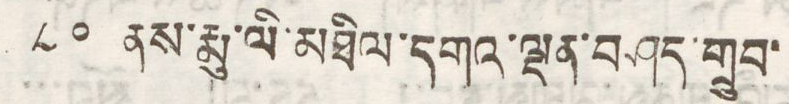༥༠ ནས་རྨུ་ལི་མཐིལ་དགའ་ལྡན་བཤད་གྲུབ་
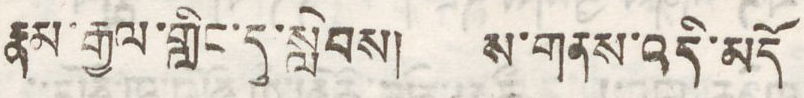རྣམ་རྒྱལ་གླིང་དུ་སླེབས། ས་གནས་འདི་མདོ
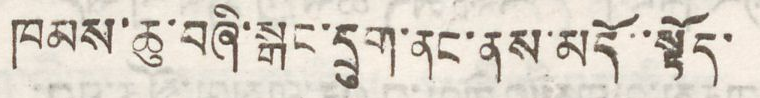ཁམས་ཆུ་བཞི་སྒང་དྲུག་ནང་ནས་མདོ་་སྟོད་
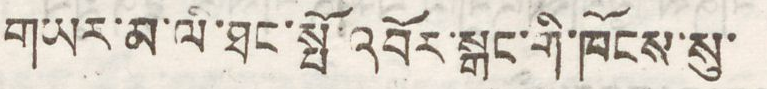གཡར་མ་ལི་ཐང་སྤོ་འབོར་སྒང་གི་ཁོངས་སུ་
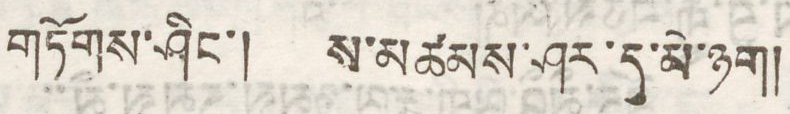གཏོགས་ཤིང་། ས་མཚམས་ཤར་དུ་མི་ཉག།
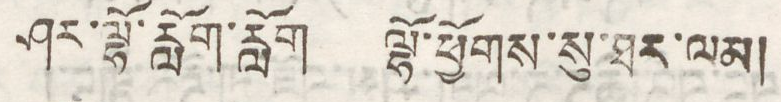ཤར་ལྷོ་རློག་རློག ལྷོ་ཕྱོགས་སུ་ཐར་ལམ།
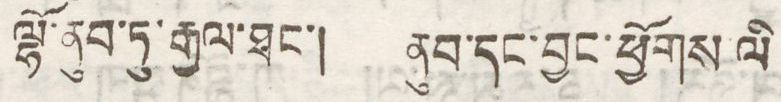ལྷོ་ནུབ་ཏུ་རྒྱལ་ཐང་། ནུབ་དང་བྱང་ཕྱོགས ལི
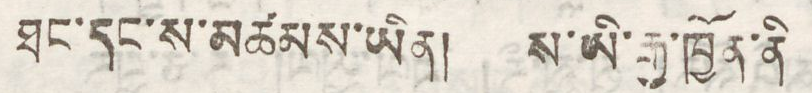ཐང་དང་ས་མཚམས་ཡིན། ས་ཡི་རྒྱ་ཁྱོན་ནི
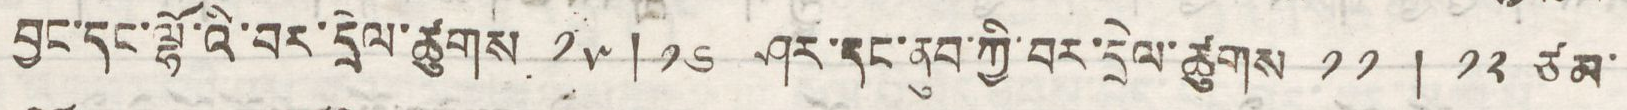བྱང་དང་ལྷོ་འི་བར་དྲེལ་ཚུགས ༡༥ ། ༡༦ ཤར་ནུབ་ཀྱི་བར་དྲེལ་ཚུགས ༡༡ ། ༡༢ ཙམ་
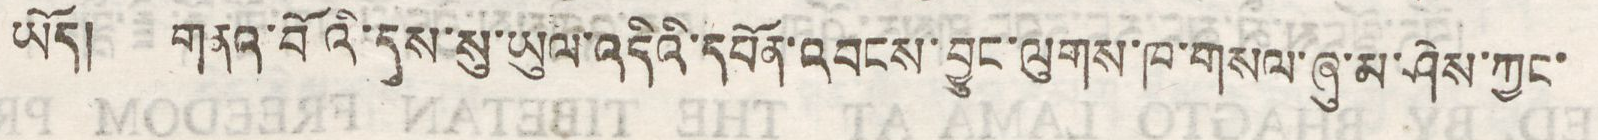ཡོད། གནའ་བོའི་དུས་སུ་ཡུལ་འདིའི་དཔོན་འབངས་བྱུང་ལུགས་ཁ་གསལ་ཞུ་མ་ཤེས་ཀྱང་
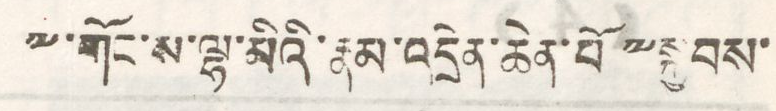༸གོང་ས་ལྷ་མིའི་རྣམ་འདྲེན་ཆེན་པོ༸སྐྱབས་
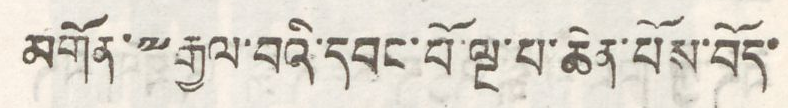མགོན་༸རྒྱལ་བའི་དབང་པོ་ལྔ་པ་ཆེན་པོས་བོད་
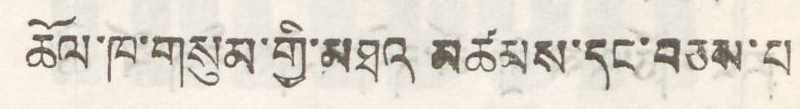ཆོལ་ཁ་གསུམ་གྱི་མཐའ མཚམས་དང་བཅས་པ
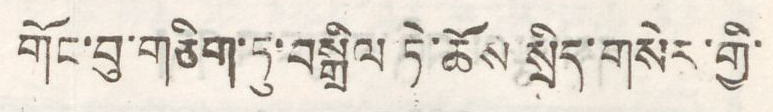གོང་བུ་གཅིག་ཏུ་བསྒྲིལ ཏེ་ཆོས་སྲིད་གསེར་གྱི་
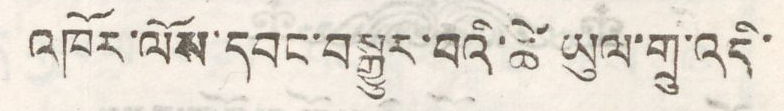འཁོར་ལོས་དབང་བསྒྱུར་བའི་ཚེ ཡུལ་གྲུ་འདི་
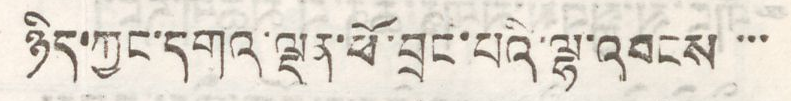ཉིད་ཀྱང་དགའ་ལྡན་ཕོ་བྲང་པའི་ལྷ་འབངས་་་
